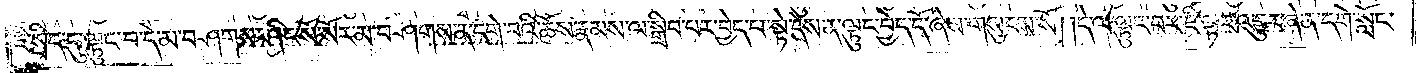ཇི་སྲིད་དུ་ལྟུང་བ་དེ་མ་བཤགས་ཤིང་སོ་སོར་མ་བཤགས་ན་དགེ་བའི་ཆོས་རྣམས་ལ་སྒྲིབ་པར་བྱེད་པ་སྟེ་དེས་ན་ལྟུང་བྱེད་དོ་ཞེས་གསུངས་སོ། །དེ་ལ་ལྟུང་བར་ཇི་ལྟར་འགྱུར་ཞེ་ན་དགེ་སློང་
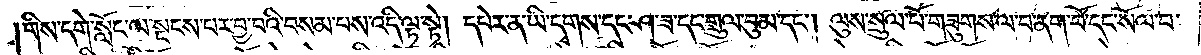གིས་དགེ་སློང་ལ་སྔངས་པར་བྱ་བའི་བསམ་པས་འདི་ལྟ་སྟེ། དཔེར་ན་ཡི་དྭགས་དང་ཤ་ཟ་དང་གྲུལ་བུམ་དང༌། ལུས་སྲུལ་པོ་གཟུགས་ལ་བ་ནག་པོ་དང་སོལ་བ་
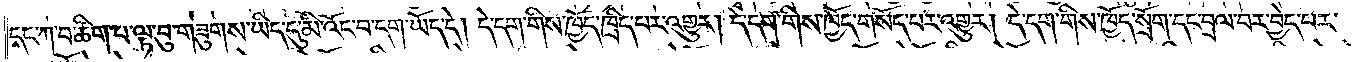དང་ཀ་བ་ཚིག་པ་ལྟ་བུ་གཟུགས་ཡིད་དུ་མི་འོང་བ་དག་ཡོད་དེ། དེ་དག་གིས་ཁྱོད་ཁྲིད་པར་འགྱུར། དེ་དག་གིས་ཁྱོད་གསོད་པར་འགྱུར། དེ་དག་གིས་ཁྱོད་སྲོག་དང་བྲལ་བར་བྱེད་པར་
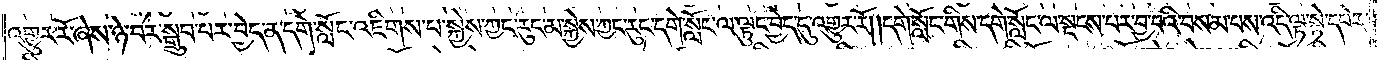འགྱུར་རོ་ཞེས་ཉེ་བར་སྒྲུབ་པར་བྱེད་ན་དགེ་སློང་འཇིགས་པ་སྐྱེས་ཀྱང་རུང་མ་སྐྱེས་ཀྱང་རུང་དགེ་སློང་ལ་ལྟུང་བྱེད་དུ་འགྱུར་རོ། །དགེ་སློང་གིས་དགེ་སློང་ལ་སྡངས་པར་བྱ་བའི་བསམ་པས་འདི་ལྟ་སྟེ་དཔེར་
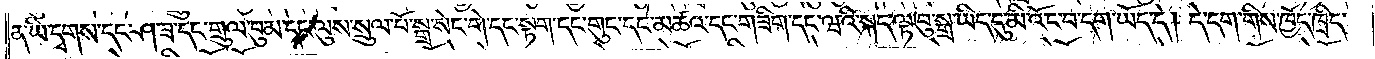ན་ཡི་དྭགས་དང་ཤ་ཟ་དང་གྲུལ་བུམ་དང་ལུས་སྲུལ་པོ་སྒྲ་སེང་གེ་དང་སྟག་དང་གུང་དང་མཚའ་དང་གཟིག་དང་ཝའི་སྐད་ལྟ་བུ་སྒྲ་ཡིད་དུ་མི་འོང་བ་དག་ཡོད་དེ། དེ་དག་གིས་ཁྱོད་ཁྲིད་
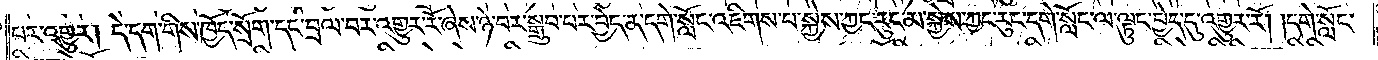པར་འགྱུར། དེ་དག་གིས་ཁྱོད་སྲོག་དང་བྲལ་བར་འགྱུར་རོ་ཞེས་ཉེ་བར་སྒྲུབ་པར་བྱེད་ན་དགེ་སློང་འཇིགས་པ་སྐྱེས་ཀྱང་རུང་མ་སྐྱེས་ཀྱང་རུང་དགེ་སློང་ལ་ལྟུང་བྱེད་དུ་འགྱུར་རོ། །དགེ་སློང་
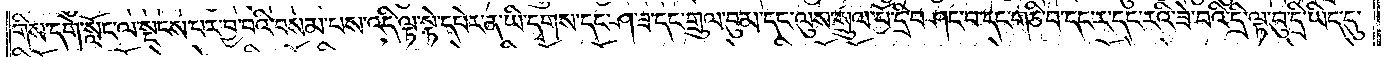གིས་དགེ་སློང་ལ་སྡངས་པར་བྱ་བའི་བསམ་པས་འདི་ལྟ་སྟེ་དཔེར་ན་ཡི་དྭགས་དང་ཤ་ཟ་དང་གྲུལ་བུམ་དང་ལུས་སྲུལ་པོ་དྲི་བཤང་བ་དང་གཅི་བ་དང་ར་དང་རའི་ཟེ་བའི་དྲི་ལྟ་བུ་དྲི་ཡིད་དུ་
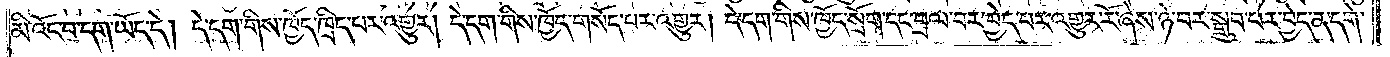མི་འོང་བ་དག་ཡོད་དེ། དེ་དག་གིས་ཁྱོད་ཁྲིད་པར་འགྱུར། དེ་དག་གིས་ཁྱོད་གསོད་པར་འགྱུར། དེ་དག་གིས་ཁྱོད་སྲོག་དང་བྲལ་བར་བྱེད་པར་འགྱུར་རོ་ཞེས་ཉེ་བར་སྒྲུབ་པར་བྱེད་ན་དགེ་
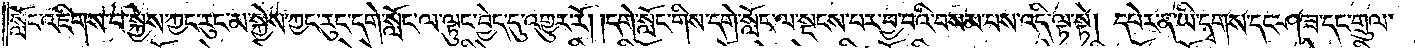སློང་འཇིགས་པ་སྐྱེས་ཀྱང་རུང་མ་སྐྱེས་ཀྱང་རུང་དགེ་སློང་ལ་ལྟུང་བྱེད་དུ་འགྱུར་རོ། །དགེ་སློང་གིས་དགེ་སློང་ལ་སྔངས་པར་བྱ་བའི་བསམ་པས་འདི་ལྟ་སྟེ། དཔེར་ན་ཡི་དྭགས་དང་ཤ་ཟ་དང་གྲུལ་
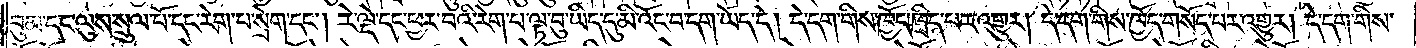བུམ་དང་ལུས་སྲུལ་པོ་དང་རེག་པ་སྲེག་དང༌། རེ་ལྡེ་དང་ཕྱར་བའི་རེག་པ་ལྟ་བུ་ཡིད་དུ་མི་འོང་བ་དག་ཡོད་དེ། དེ་དག་གིས་ཁྱོད་ཁྲིད་པར་འགྱུར། དེ་དག་གིས་ཁྱོད་གསོད་པར་འགྱུར། དེ་དག་གིས་
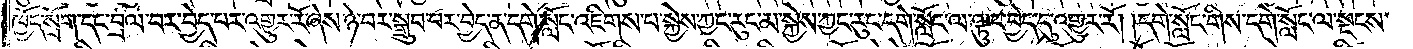ཁྱོད་སྲོག་དང་བྲལ་བར་བྱེད་པར་འགྱུར་རོ་ཞེས་ཉེ་བར་སྒྲུབ་པར་བྱེད་ན་དགེ་སློང་འཇིགས་པ་སྐྱེས་ཀྱང་རུང་མ་སྐྱེས་ཀྱང་རུང་དགེ་སློང་ལ་ལྟུང་བྱེད་དུ་འགྱུར་རོ། །དགེ་སློང་གིས་དགེ་སློང་ལ་སྡངས་
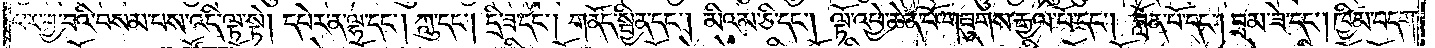པར་བྱ་བའི་བསམ་པས་འདི་ལྟ་སྟེ། དཔེར་ན་ལྷ་དང༌། ཀླུ་དང༌། དྲི་ཟ་དང༌། གནོད་སྦྱིན་དང༌། མིའམ་ཅི་དང༌། ལྟོ་འཕྱེ་ཆེན་པོ་གཟུགས་རྒྱལ་པོ་དང༌། བློན་པོ་དང༌། བྲམ་ཟེ་དང༌། ཁྱིམ་བདག་
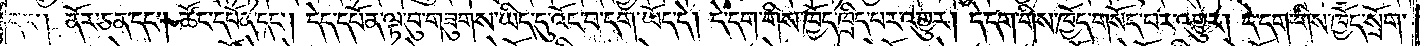དང༌། ནོར་ཅན་དང༌། ཚོང་དཔོན་དང༌། དེད་དཔོན་ལྟ་བུ་གཟུགས་ཡིད་དུ་འོང་བ་དག་ཡོད་དེ། དེ་དག་གིས་ཁྱོད་ཁྲིད་པར་འགྱུར། དེ་དག་གིས་ཁྱོད་གསོད་པར་འགྱུར། དེ་དག་གིས་ཁྱོད་སྲོག་
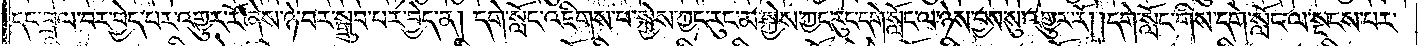དང་བྲལ་བར་བྱེད་པར་འགྱུར་རོ་ཞེས་ཉེ་བར་སྒྲུབ་པར་བྱེད་ན། དགེ་སློང་འཇིགས་པ་སྐྱེས་ཀྱང་རུང་མ་སྐྱེས་ཀྱང་རུང་དགེ་སློང་ལ་ཉེས་བྱས་སུ་འགྱུར་རོ། །དགེ་སློང་གིས་དགེ་སློང་ལ་སྡངས་པར་
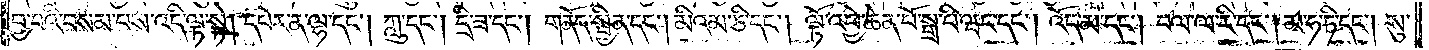བྱ་བའི་བསམ་པས་འདི་ལྟ་སྟེ། དཔེར་ན་ལྷ་དང༌། ཀླུ་དང༌། དྲི་ཟ་དང༌། གནོད་སྦྱིན་དང༌། མིའམ་ཅི་དང༌། ལྟོ་འཕྱེ་ཆེན་པོ་སྒྲ་པི་ཝང་དང༌། འོད་མ་དང༌། བལ་ལ་རི་དང༌། མ་ཧ་ཏི་དང༌། སུ་
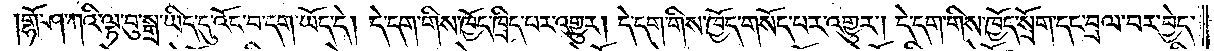གྷོ་ཤ་ཀའི་ལྟ་བུ་སྒྲ་ཡིད་དུ་འོང་བ་དག་ཡོད་དེ། དེ་དག་གིས་ཁྱོད་ཁྲིད་པར་འགྱུར། དེ་དག་གིས་ཁྱོད་གསོད་པར་འགྱུར། དེ་དག་གིས་ཁྱོད་སྲོག་དང་བྲལ་བར་བྱེད་
